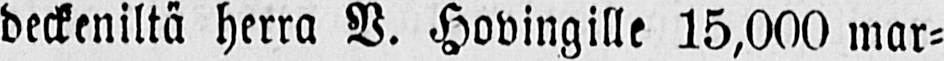deckeniltä herra V. Hovingille 15,000 mar-
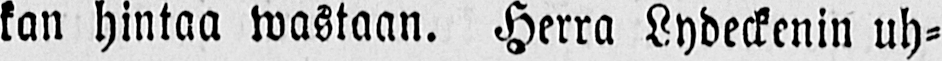kan hintaa wastaan. Herra Lydeckenin uh-
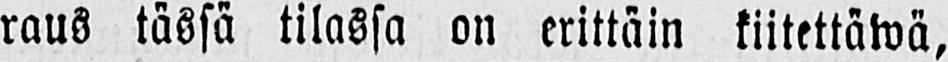raus tässä tilassa on erittäin kiitettäwä,
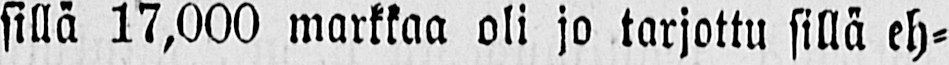sillä 17,000 markkaa oli jo tarjottu sillä eh-
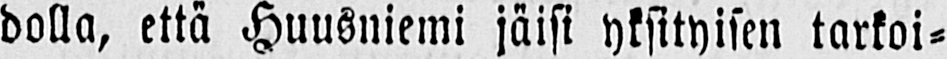dolla, että Huusniemi jäisi yksityisen tarkoi-
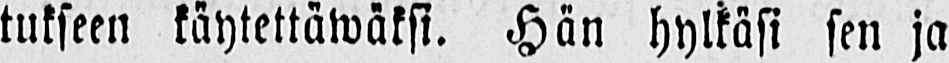tukseen käytettäwäksi. Hän hylkäsi sen ja
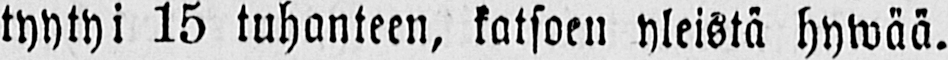tyytyi 15 tuhanteen, katsoen yleistä hywää.
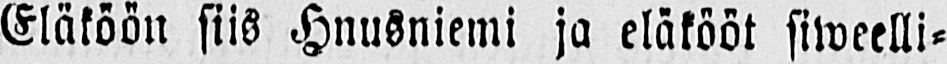Eläköön siis Hnusniemi ja eläkööt siweelli-
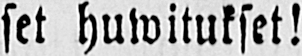set huwitukset!
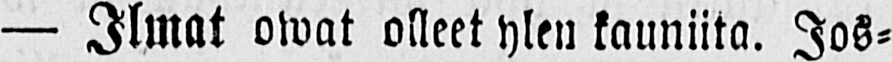— Ilmat owat olleet ylen kauniita. Jos-
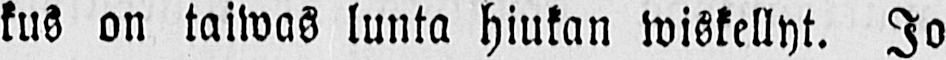kus on taiwas lunta hiukan wiskellyt. Jo
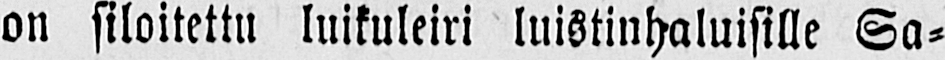on siloitettu luikuleiri luistinhaluisille Sa-
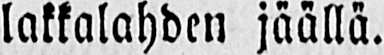lakkalahden jäällä.
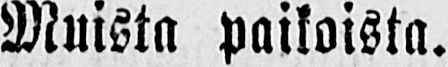Muista paikoista.
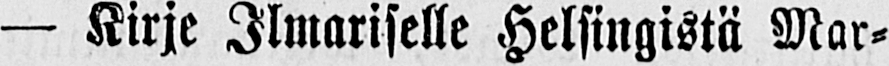— Kirje Ilmariselle Helsingistä Mar-
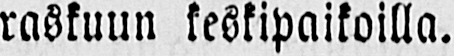raskuun keskipaikoilla.
